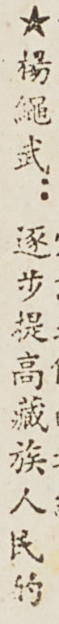★楊繩武：逐步提高藏族人民的
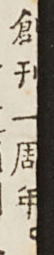創刊一週年。
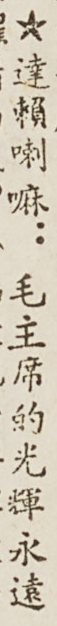★達賴喇嘛：毛主席的光輝永遠
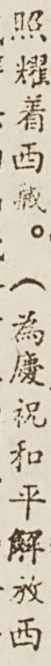照耀着西藏。（爲慶祝和平解放西
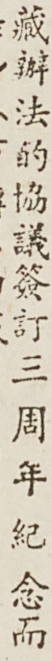藏辦法的協議簽訂三 周 年 紀 念而
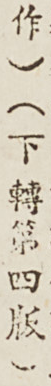作）（下轉第四版）
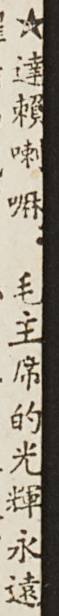★達賴喇嘛：毛主席的光輝永遠
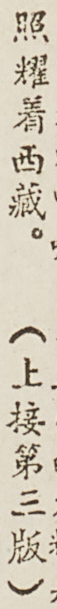照耀着西藏。（上接第三版）
